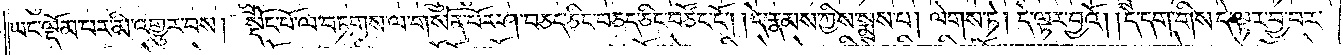ཡང་ལྡོམ་པར་མི་འགྱུར་པས། སྡོང་པོ་ལ་བཏགས་ལ་གསོན་པོར་ཤ་བཅད་ཅིང་བཅད་ཅིང་བཙོང་ངོ༌། །དེ་རྣམས་ཀྱིས་སྨྲས་པ། ལེགས་ཏེ། དེ་ལྟར་བྱའོ། །དེ་དག་གིས་དེ་ལྟར་བྱ་བར་
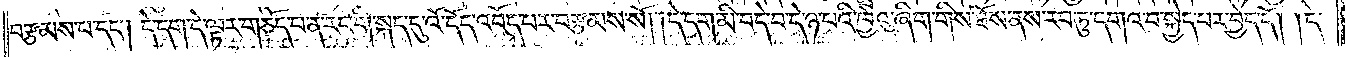བརྩམས་པ་དང༌། དེ་དག་དེ་ལྟར་གཅོད་པ་ན་རང་གི་སྐད་དུ་འོ་དོད་འབོད་པར་བརྩམས་སོ། །དེ་དག་མི་བདེ་བ་དེ་ཉ་པའི་ཁྱེའུ་ཞིག་གིས་ཐོས་ནས་རབ་ཏུ་དགའ་བ་སྐྱེད་པར་བྱེད་དོ། །དེ་
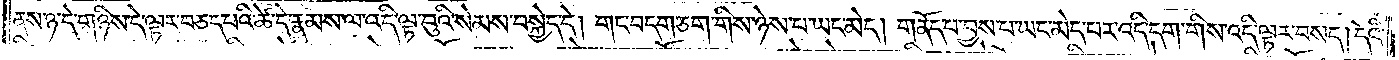ནས་ཉ་དེ་གཉིས་དེ་ལྟར་བཅད་པའི་ཚེ་དེ་རྣམས་ལ་འདི་ལྟ་བུའི་སེམས་བསྐྱེད་དེ། གང་བདག་ཅག་གིས་ཉེས་པ་ཡང་མེད། གནོད་པ་བྱས་པ་ཡང་མེད་པར་འདི་དག་གིས་འདི་ལྟར་བསད། དེའི་
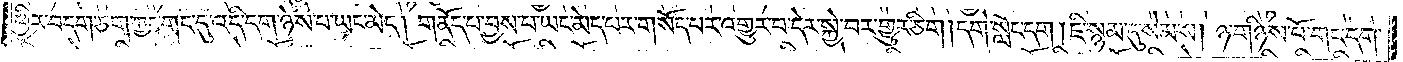ཕྱིར་བདག་ཅག་ཀྱང་གང་དུ་འདི་དག་ཉེས་པ་ཡང་མེད། གནོད་པ་བྱས་པ་ཡང་མེད་པར་གསོད་པར་འགྱུར་བ་དེར་སྐྱེ་བར་གྱུར་ཅིག །དགེ་སློང་དག །ཇི་སྙམ་དུ་སེམས། ཉ་གཉིས་པོ་གང་དག་
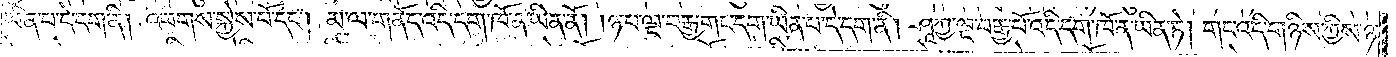ཡིན་པ་དེ་དག་ནི། འཕགས་སྐྱེས་པོ་དང༌། མ་ལ་གནོད་འདི་དག་ཁོ་ན་ཡིན་ནོ། །ཉ་པ་ལྔ་བརྒྱ་གང་དག་ཡིན་པ་དེ་དག་ནི། ཤཱཀྱ་ལྔ་བརྒྱ་པོ་འདི་དག་ཁོ་ན་ཡིན་ཏེ། གང་འདི་གཉིས་ཀྱིས་ཉ་
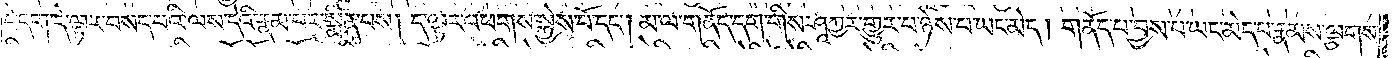དེ་དག་དེ་ལྟར་བསད་པའི་ལས་དེའི་རྣམ་པར་སྨིན་པས། ད་ལྟར་འཕགས་སྐྱེས་པོ་དང༌། མ་ལ་གནོད་དག་གིས་ཤཱཀྱར་གྱུར་པ་ཉེས་པ་ཡང་མེད། གནོད་པ་བྱས་པ་ཡང་མེད་པ་རྣམས་ལྕགས་
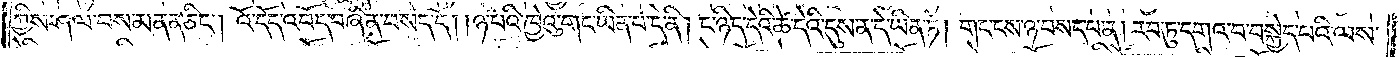ཀྱིས་ཤལ་བས་མནན་ཅིང༌། འོ་དོད་འབོད་བཞིན་བསད་དོ། །ཉ་པའི་ཁྱེའུ་གང་ཡིན་པ་དེ་ནི། ང་ཉིད་དེའི་ཚེ་དེའི་དུས་ན་དེ་ཡིན་ཏེ། གང་ངས་ཉ་བསད་པ་ན། རབ་ཏུ་དགའ་བ་བསྐྱེད་པའི་ལས་
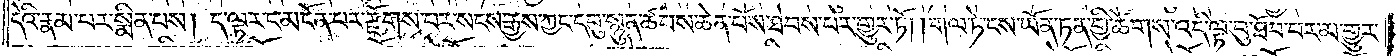དེའི་རྣམ་པར་སྨིན་པས། ད་ལྟར་ང་མངོན་པར་རྫོགས་པར་སངས་རྒྱས་ཀྱང་དབུ་སྙུན་ཚབས་ཆེན་པོས་ཐེབས་པར་གྱུར་ཏོ། །གལ་ཏེ་ངས་ཡོན་ཏན་གྱི་ཚོགས་འདི་ལྟ་བུ་ཐོབ་པར་མ་གྱུར་
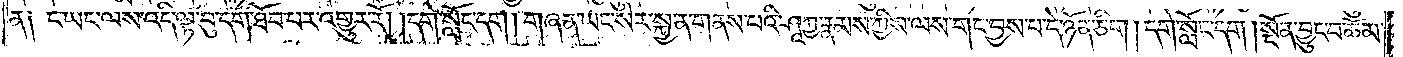ན༑ ང་ཡང་ལས་འདི་ལྟ་བུ་དག་ཐོབ་པར་འགྱུར་རོ། །དགེ་སློང་དག །གཞན་ཡང་སེར་སྐྱ་ན་གནས་པའི་ཤཱཀྱ་རྣམས་ཀྱིས་ལས་གང་བྱས་པ་དེ་ཉོན་ཅིག །དགེ་སློང་དག །སྔོན་བྱུང་བ་ཆོམ་
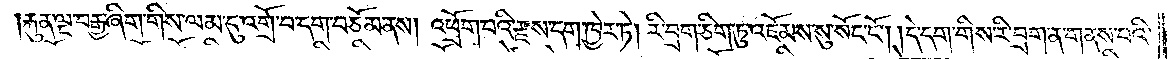རྐུན་ལྔ་བརྒྱ་ཞིག་གིས་ལམ་དུ་འགྲོ་བ་དག་བཅོམ་ནས། འཕྲོག་པའི་རྫས་དག་ཁྱེར་ཏེ། རི་བྲག་ཅིག་ཏུ་འཇོམས་སུ་སོང་ངོ༌། །དེ་དག་གིས་རི་བྲག་ན་གནས་པའི་
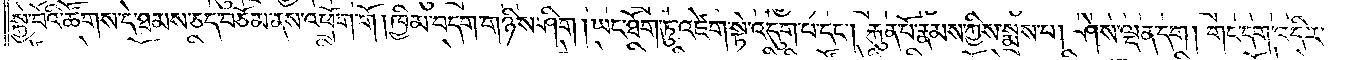སྐྱེ་བོའི་ཚོགས་དེ་ཐམས་ཅད་བཅོམ་ནས་འཕྲོག་གོ །ཁྱིམ་བདག་གཉིས་ཤིག །ཡང་ཐོག་ཏུ་འཛེག་སྟེ་འདུག་པ་དང༌། རྐུན་པོ་རྣམས་ཀྱིས་སྨྲས་པ། ཤེས་ལྡན་དག །གང་དག་འདིར་
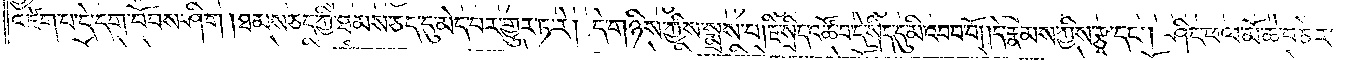འཛེག་པ་དེ་དག་བོབས་ཤིག །ཐམས་ཅད་ཀྱི་ཐམས་ཅད་དུ་མེད་པར་གྱུར་ཏ་རེ། དེ་གཉིས་ཀྱིས་སྨྲས་པ། ཇི་སྲིད་འཚོ་བ་དེ་སྲིད་དུ་མི་འབབ་བོ། །དེ་རྣམས་ཀྱིས་རྩྭ་དང༌། ཤིང་ཕལ་མོ་ཆེ་བཅེར་
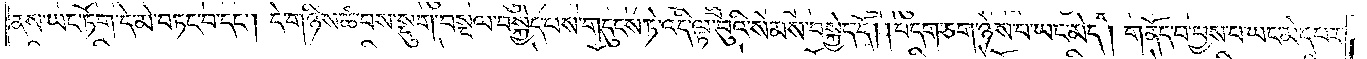ནས་ཡང་ཏོག་དེ་མེ་བཏང་བ་དང༌། དེ་གཉིས་ཚ་བས་སྡུག་བསྔལ་བསྐྱེད་པས་གདུངས་ཏེ་འདི་ལྟ་བུའི་སེམས་བསྐྱེད་དོ། །བདག་ཅག་ཉེས་པ་ཡང་མེད། གནོད་པ་བྱས་པ་ཡང་མེད་པར་
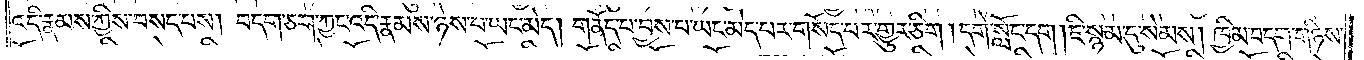འདི་རྣམས་ཀྱིས་བསད་པས། བདག་ཅག་ཀྱང་འདི་རྣམས་ཉེས་པ་ཡང་མེད། གནོད་པ་བྱས་པ་ཡང་མེད་པར་གསོད་པར་གྱུར་ཅིག །དགེ་སློང་དག །ཇི་སྙམ་དུ་སེམས། ཁྱིམ་བདག་གཉིས་
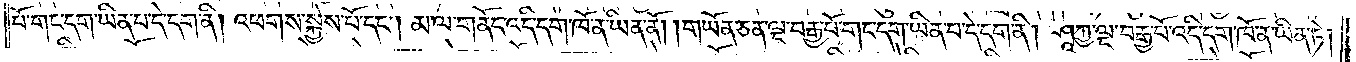པོ་གང་དག་ཡིན་པ་དེ་དག་ནི། འཕགས་སྐྱེས་པོ་དང༌། མ་ལ་གནོད་འདི་དག་ཁོ་ན་ཡིན་ནོ། །གཡོན་ཅན་ལྔ་བརྒྱ་པོ་གང་དག་ཡིན་པ་དེ་དག་ནི། ཤཱཀྱ་ལྔ་བརྒྱ་པོ་འདི་དག་ཁོ་ན་ཡིན་ཏེ།
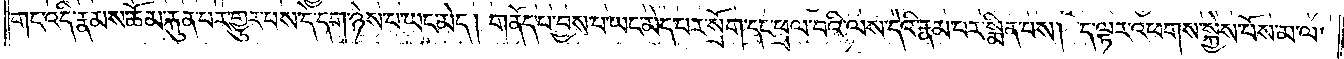གང་འདི་རྣམས་ཆོམ་རྐུན་པར་གྱུར་པས་དེ་དག་ཉེས་པ་ཡང་མེད། གནོད་པ་བྱས་པ་ཡང་མེད་པར་སྲོག་དང་ཕྲལ་བའི་ལས་དེའི་རྣམ་པར་སྨིན་པས། ད་ལྟར་འཕགས་སྐྱེས་པོས་མ་ལ་
